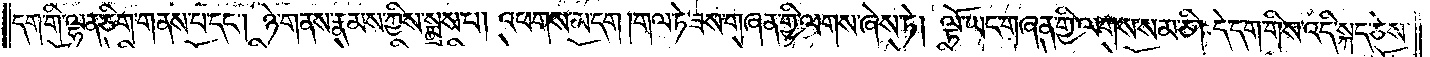དག་གི་ལྷན་ཅིག་གནས་པ་དང༌། ཉེ་གནས་རྣམས་ཀྱིས་སྨྲས་པ། འཕགས་མ་དག །གལ་ཏེ་ཟས་གཞན་གྱི་ལགས་ཞེས་ཏེ། ལྟོ་ཡང་གཞན་གྱི་ལགས་སམ་ཅི། དེ་དག་གིས་འདི་སྐད་ཅེས་
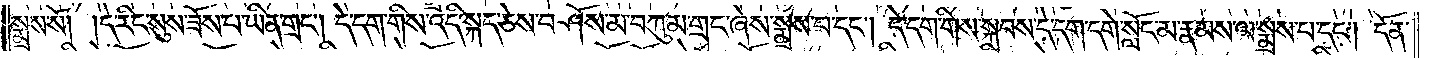སྨྲས་སོ། །དེ་རིང་སུས་ཟོས་པ་ཡིན་གྲང༌། དེ་དག་གིས་འདི་སྐད་ཅེས་བཤོས་མ་བཀུམ་གྲང་ཞེས་སྨྲས་པ་དང༌། དེ་དག་གིས་སྐབས་དེ་དག་དགེ་སློང་མ་རྣམས་ལ་སྨྲས་པ་དང༌། དོན་
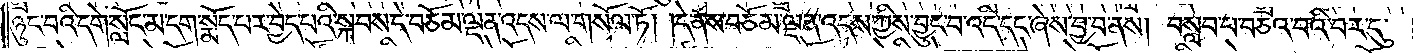ཉུང་བའི་དགེ་སློང་མ་དག་སྨོད་པར་བྱེད་པའི་སྐབས་དེ་བཅོམ་ལྡན་འདས་ལ་གསོལ་ཏོ། །དེ་ནས་བཅོམ་ལྡན་འདས་ཀྱིས་བྱུང་བ་འདི་དང་ཞེས་བྱ་བ་ནས། བསླབ་པ་བཅའ་བའི་བར་དུ་
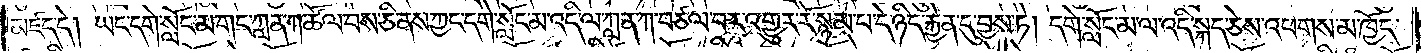མཛད་དེ། ཡང་དགེ་སློང་མ་གང་ཀླན་ཀ་ཚོལ་བས་ཅི་ནས་ཀྱང་དགེ་སློང་མ་འདི་ལ་ཀླན་ཀ་བཙལ་བར་འགྱུར་རོ་སྙམ་པ་དེ་ཉིད་རྐྱེན་དུ་བྱས་ཏེ། དགེ་སློང་མ་ལ་འདི་སྐད་ཅེས་འཕགས་མ་ཁྱོད་
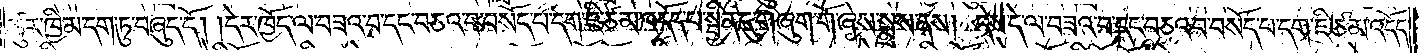ཚུར་ཁྱིམ་དག་ཏུ་བཞུད་དོ། །དེར་ཁྱོད་ལ་བཟའ་བ་དང་བཅའ་བ་བསོད་པ་དག་ཇི་ཙམ་འདོད་པ་སྦྱིན་དུ་གཞུག་གོ་ཞེས་སྨྲས་ནས། དེས་དེ་ལ་བཟའ་བ་དང་བཅའ་བ་བསོད་པ་དག་ཇི་ཙམ་འདོད་
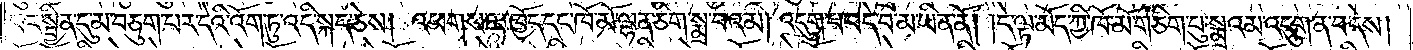པར་སྦྱིན་དུ་མ་བཅུག་པར་དེའི་འོག་ཏུ་འདི་སྐད་ཅེས། འཕགས་མ་ཁྱོད་དང་ཁོ་མོ་ལྷན་ཅིག་སྨྲ་བའམ། འདུག་པ་བདེ་བ་མ་ཡིན་ནོ། །དེ་ལྟ་མོད་ཀྱི་ཁོ་མོ་གཅིག་པུ་སྨྲའམ་འདུག་ན་བ་དེས།
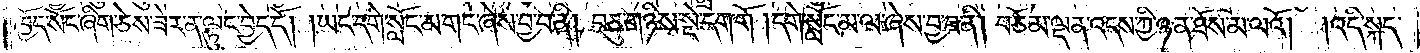ཁྱོད་སོང་ཞིག་ཅེས་ཟེར་ན་ལྟུང་བྱེད་དོ། །ཡང་དགེ་སློང་མ་གང་ཞེས་བྱ་བ་ནི། བཅུ་གཉིས་སྡེ་དག་གོ། དགེ་སློང་མ་ལ་ཞེས་བྱ་བ་ནི། བཅོམ་ལྡན་འདས་ཀྱི་ཉན་ཐོས་མ་ལའོ། །འདི་སྐད་
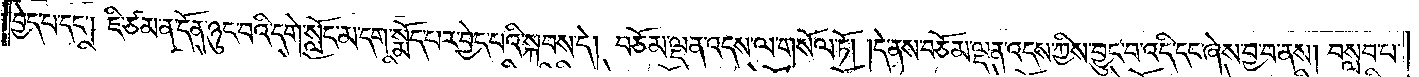བྱེད་པ་དང༌། ཇི་ཙམ་ན་དོན་ཉུང་བའི་དགེ་སློང་མ་དག་སྨོད་པར་བྱེད་པའི་སྐབས་དེ། བཅོམ་ལྡན་འདས་ལ་གསོལ་ཏོ། །དེ་ནས་བཅོམ་ལྡན་འདས་ཀྱིས་བྱུང་བ་འདི་དང་ཞེས་བྱ་བ་ནས། བསླབ་པ་
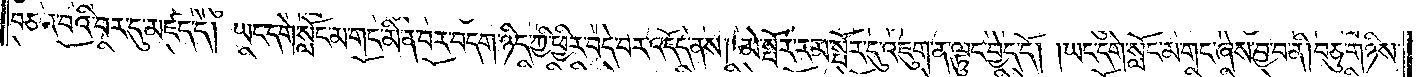བཅའ་བའི་བར་དུ་མཛད་དེ། ཡང་དགེ་སློང་མ་གང་མི་ན་བར་བདག་ཉིད་ཀྱི་ཕྱིར་བདེ་བར་འདོད་ནས། མེ་སྤོར་རམ་སྤོར་དུ་འཇུག་ན་ལྟུང་བྱེད་དོ། །ཡང་དགེ་སློང་མ་གང་ཞེས་བྱ་བ་ནི། བཅུ་གཉིས་
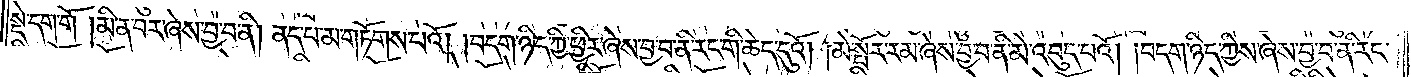སྡེ་དག་གོ །མི་ན་བར་ཞེས་བྱ་བ་ནི། ནད་པ་མ་གཏོགས་པའོ། །བདག་ཉིད་ཀྱི་ཕྱིར་ཞེས་བྱ་བ་ནི་རང་གི་ཆེད་དུའོ། །མེ་སྤོར་རམ་ཞེས་བྱ་བ་ནི་མེ་འབུད་པའོ། །བདག་ཉིད་ཀྱིས་ཞེས་བྱ་བ་ནི་རང་
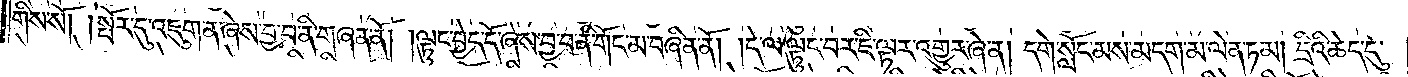གིས་སོ། །སྤོར་དུ་འཇུག་ན་ཞེས་བྱ་བ་ནི་གཞན་ནོ། །ལྟུང་བྱེད་དོ་ཞེས་བྱ་བ་ནི་གོང་མ་བཞིན་ནོ། །དེ་ལ་ལྟུང་བར་ཇི་ལྟར་འགྱུར་ཞེ་ན། དགེ་སློང་མས་མདག་མ་ལེན་ཏམ། དྲིའི་ཆེད་དུ་
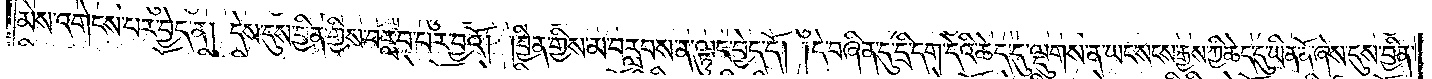མེས་འགེངས་པར་བྱེད་ན། དེས་དུས་བྱིན་གྱིས་བརླབ་པར་བྱའོ། །བྱིན་གྱིས་མ་བརླབས་ན་ལྟུང་བྱེད་དོ། །དེ་བཞིན་དུ་དྲི་དག་དེའི་ཆེད་དུ་ལྡུགས་ན་ཡང་སངས་རྒྱས་ཀྱི་ཆེད་དུ་ཡིན་ནོ་ཞེས་དུས་བྱིན་
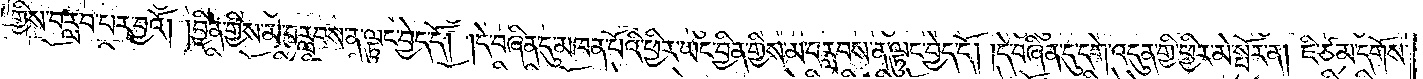གྱིས་བརླབ་པར་བྱའོ། །བྱིན་གྱིས་མ་བརླབས་ན་ལྟུང་བྱེད་དོ། །དེ་བཞིན་དུ་མཁན་པོའི་ཕྱིར་ཡང་བྱིན་གྱིས་མ་བརླབས་ན་ལྟུང་བྱེད་དོ། །དེ་བཞིན་དུ་དགེ་འདུན་གྱི་ཕྱིར་མེ་སྤོར་ན། ཇི་ཙམ་དགོས་
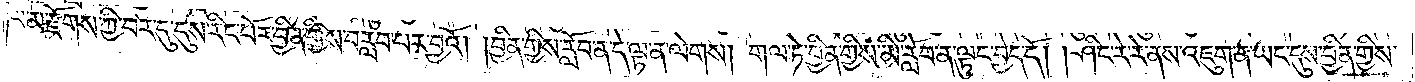པ་མ་རྫོགས་ཀྱི་བར་དུ་དུས་རིང་པོར་བྱིན་གྱིས་བརླབ་པར་བྱའོ། །བྱིན་གྱིས་རློབ་ན་དེ་ལྟ་ན་ལེགས། གལ་ཏེ་བྱིན་གྱིས་མི་རློབ་ན་ལྟུང་བྱེད་དོ། །ཤིང་རེ་རེ་ནས་འཇུག་ན་ཡང་དུས་བྱིན་གྱིས་
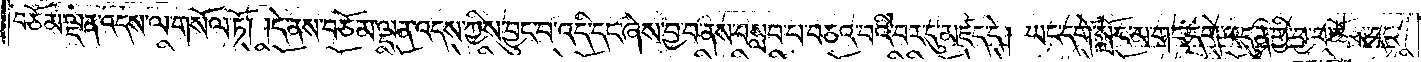བཅོམ་ལྡན་འདས་ལ་གསོལ་ཏོ། །དེ་ནས་བཅོམ་ལྡན་འདས་ཀྱིས་བྱུང་བ་འདི་དང་ཞེས་བྱ་བ་ནས་བསླབ་པ་བཅའ་བའི་བར་དུ་མཛད་དེ། ཡང་དགེ་སློང་མ་གང་དགེ་འདུན་གྱི་བྱ་བ་ཆོས་དང་
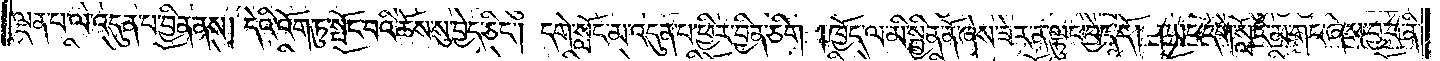ལྡན་པ་ལ་འདུན་པ་བྱིན་ནས། དེའི་འོག་ཏུ་སྤོང་བའི་ཆོས་སུ་བྱེད་ཅིང༌། དགེ་སློང་མ་འདུན་པ་ཕྱིར་བྱིན་ཅིག །ཁྱོད་ལ་མི་སྦྱིན་ནོ་ཞེས་ཟེར་ན་ལྟུང་བྱེད་དོ། །ཡང་དགེ་སློང་མ་གང་ཞེས་བྱ་བ་ནི་
